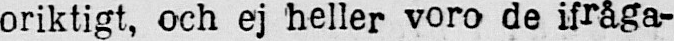oriktigt, och ej heller voro de ifråga-
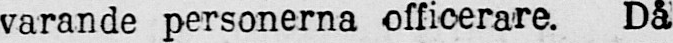varande personerna officerare. Då
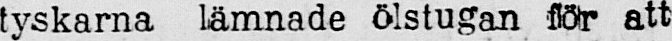tyskarna lämnade ölstugan flör att
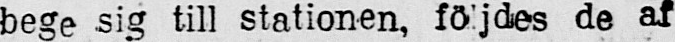bege sig till stationen, följdes de af
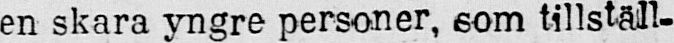en skara yngre personer, eom tillställ-
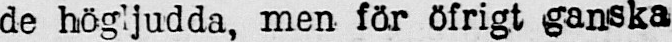de högljudda, men för öfrigt ganska
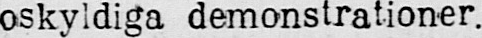oskyldiga demonstrationer.
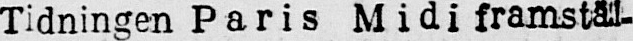Tidningen Paris Midi framstäl-
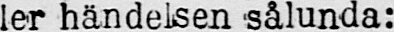ler händelsen sålunda:
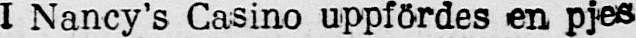I Nancy's Casino uppfördes en pjes
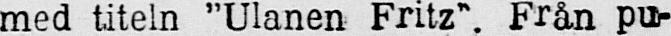med titeln ”Ulanen Fritz". Från pu-
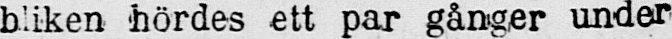bliken hördes ett par gånger under
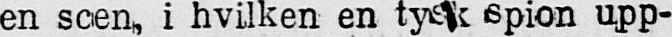en scen, i hvilken en tysk spion upp-
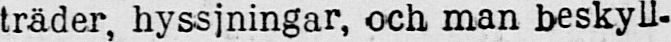träder, hyssjningar, och man beskyll-
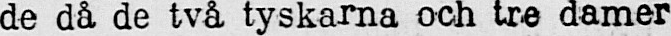de då de två tyskarna och tre damer
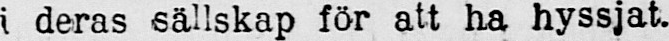i deras sällskap för att ha hyssjat.
